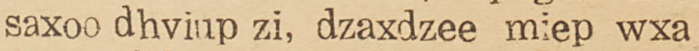saxoo dhviup zi, dzaxdzee miep wxa
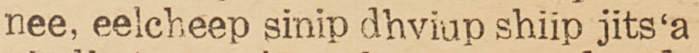nee, eelcheep sinip dhviup shiip jits'a
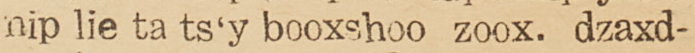nip lie ta ts'y booxshoo zoox. dzaxd-
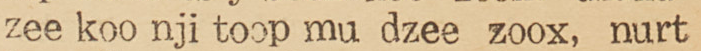zee koo nji toop mu dzee zoox, nurt
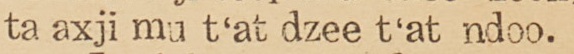ta axji mu t'at dzee t'at ndoo.
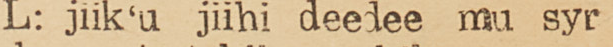L: jiik'u jiihi deedee mu syr
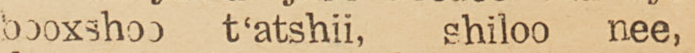booxshoo t'atshii, shiloo nee,
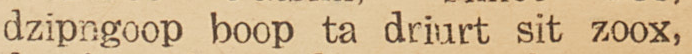dzipngoop boop ta driurt sit zoox,
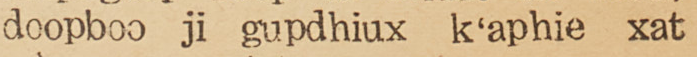doopboo ji gupdhiux k'aphie xat
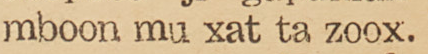mboon mu xat ta zoox.
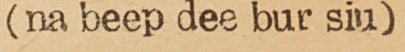(na beep dee bur siu)
